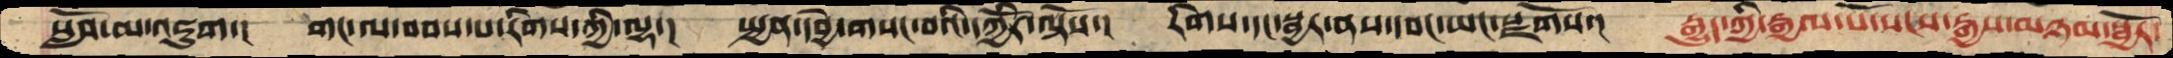སློབ་མ་འཇུག་།  གང་ལ་བབས་པ་རིགས་ཀྱི་ལྷ་།  སྤྱན་དབྱེ་གསང་བའི་དཀྱོིར་ལྟོས་།  རིགས་དང་སྦྱར་ནས་དབང་ཡང་སྫོགས་།  རྒྱུད་ཀྱི་རྒྱལ་པོ་སངས་རྒྱས་མཉམ་སྦྱོར་
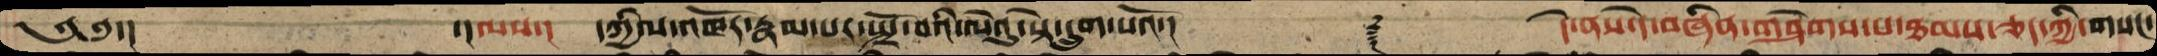༄༅་།         ་།ལས་།  དཀྱིལ་འཁོར་རྣམ་པར་སྤྲོ་བའི་ལེའུ་སྟེ་དྲུག་པའོ་།        ༈    དེ་ནས་དེ་བཞིན་གཤེགས་པ་ཐམས་ཅད་ཀྱི་གསང་
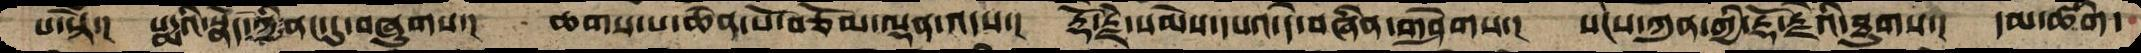པ་སྟེ་།  པདྨའི་སྣོད་ཀྱི་ནང་དུ་བཞུགས་།  ཆགས་པ་ཆེན་པོ་བཅོམ་ལྡན་འདས་།  རྡོ་རྗེ་སེམས་དཔའ་དེ་བཞིན་གཤེགས་།   སངས་ཀུན་གྱི་རྡོ་རྗེའི་ཐུགས་།  དམ་ཚིག་
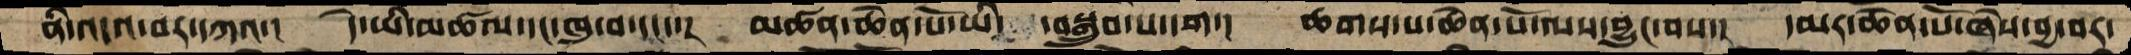ནི་འདའ་བར་དཀའ་།  དེ་ཡི་མཚལ་དང་ཁུ་བ་དང་་།  མཚན་ཆེན་པོ་ཡི་  ་བསྒྲུབ་པ་དག་།  ཆགས་པ་ཆེན་པོ་ལས་བྱུང་བས་།  དམར་ཆེན་པོ་ཞེས་བྱ་བར་
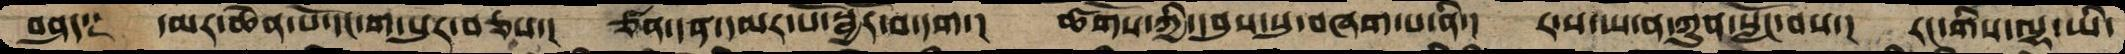བཤད༑  དམར་ཆེན་པོ་དང་ག་པུར་བཅས་།  ཙན་དན་དམར་པོ་སྦྱོར་བ་དག་།  ཚོགས་ཀྱི་དབུས་སུ་བཞག་པ་ནི་།   ར་ས་ཡ་ན་ཀུན་སློང་བས་།  རང་གིས་ལྷ་ཡི་
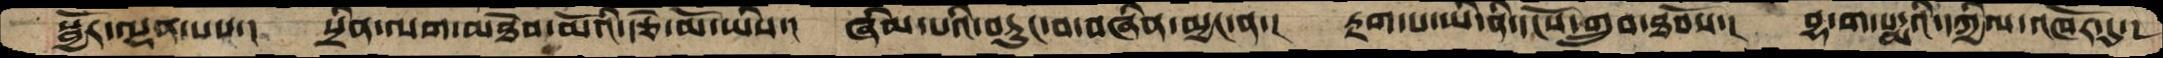སྦྱོར་ལྡན་པས་།   སྲིན་ལག་མཐེབ་མོའི་རྩེ་མོ་ཡིས་།  ཞིམ་པའི་བཏུང་བ་བཞིན་མྱང་ན་།   རྟག་པ་ཡི་ནི་དངོས་གྲུབ་ཐོབས་།   བྷ་ག་པདྨའི་དཀྱིལ་འཁོར་དུ་།
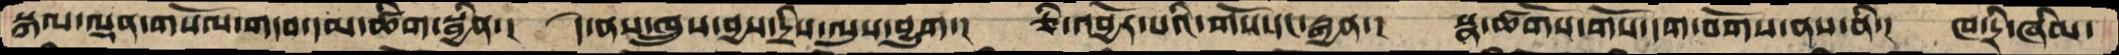སྐལ་ལྡན་གསོལ་གདབ་དམ་ཚིག་སྦྱིན་།  དེ་ནས་ཁྲུས་བྱས་དྲིས་ལུས་བྱུག་།  ཅི་འབྱོར་པའི་གོས་དང་རྒྱན་།  སྣ་ཚོགས་གོས་དག་བགོས་ནས་ནི་།  ཁ་དྲི་ཞིམ་
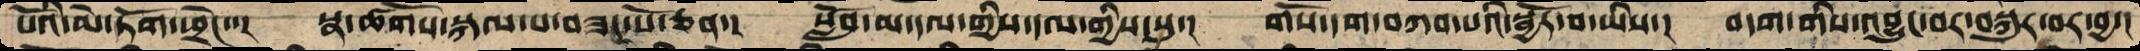པོའི་མེ་ཏོག་ཕྲེང་་།  སྣ་ཚོགས་སྐལ་པ་བཟང་པོ་ཅན་།  སློབ་མ་དལ་གྱིས་དལ་གྱིས་སུ་།  གསོ་དག་བཀབ་པའི་སྦྱོར་བ་ཡིས་།  བདག་གིས་འབྱུང་བར་བསྐུར་བར་བྱ་།
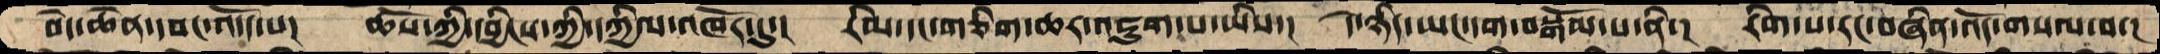བདེ་ཆེན་དབང་འདོད་པ།  ཆོས་ཀྱི་དབྱིངས་ཀྱི་དཀྱིལ་འཁོར་དུ་།  རིམ་དང་གཅིག་ཆར་འཇུག་པ་ཡིས་།  དེ་ཉིད་ཡང་དག་བསྒོམ་པ་ནི་།  རིག་པ་རང་བཞིན་འོད་གསལ་བ་།
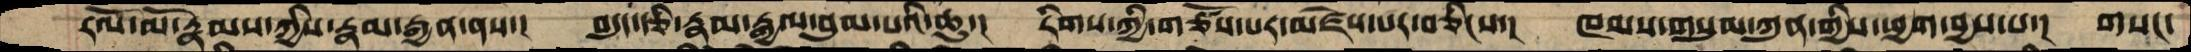རོལ་མོ་རྣམས་ཀྱིས་རྣམ་རྒྱན་ནས་།  བདུད་རྩི་རྣམ་རྒྱལ་བུམ་པའི་ཆུ་།  རིགས་ཀྱི་གཙོས་པར་མཛེས་པར་བཅིངས་།  ཁམས་གསུམ་ཀུན་གྱིས་ཕྱག་བྱས་པ་།  གསང་
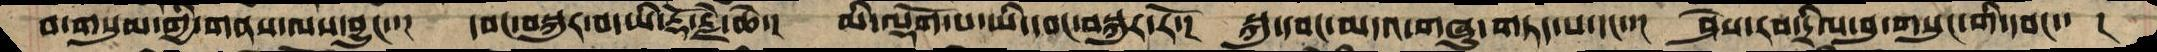བ་གསུམ་གྱི་གནས་ལས་བྱུང་་།  དབང་བསྐུར་བ་ཡི་རྡོ་རྗེ་ཆེ་།  མི་ལྡོག་པ་ཡི་དབང་བསྐུར་རོ་།  སྐུ་དབང་མདའ་གཞུ་གཏད་པ་དང་་།  ཤེས་རབ་དྲིལ་བུ་གསུང་གི་དབང་་  །
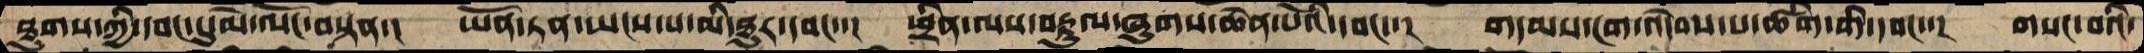ཐུགས་ཀྱི་དབང་དུ་མེ་ལོང་བསྟན་།  ཡོན་ཏན་ཡངས་པ་མི་ཐུར་དབང་་།  ཕྲིན་ལས་བརྟུལ་ཞུགས་ཆེན་པོའི་དབང་་།  གདམས་ངག་འདེབས་པ་ཚིག་གི་དབང་་།  གསང་བའི་
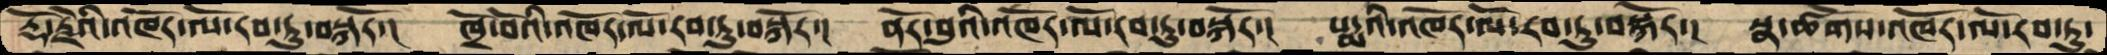རྡོ་རྗེ་འཁོར་ལོ་རབ་ཏུ་བསྐོར་།  ཁྲོ་བོའི་འཁོར་ལོ་རབ་ཏུ་བསྐོར་།  ནོར་བུའི་འཁོར་ལོ་རབ་ཏུ་བསྐོར་།  པདྨའི་འཁོར་ལོ་རབ་ཏུ་བསྐོར་།  སྣ་ཚོགས་འཁོར་ལོ་རབ་ཏུ་
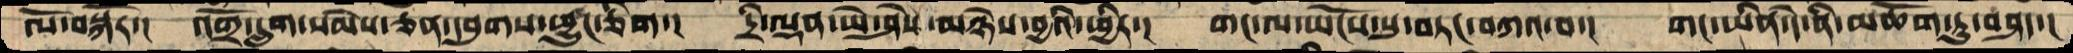ལོ་བསྐོར་།  འགྲོ་དྲུག་སེམས་ཅན་དབུགས་ཕྱུང་ཅིག་།  དྲི་ལྡན་ཡེ་ཤེས་མཉེས་བྱའི་ཕྱིར་།  གང་ལ་ཡོངས་སུ་བཏང་བཀའ་བ་།  གང་ཡིན་དེ་ནི་མཆོག་ཏུ་བཤད་།
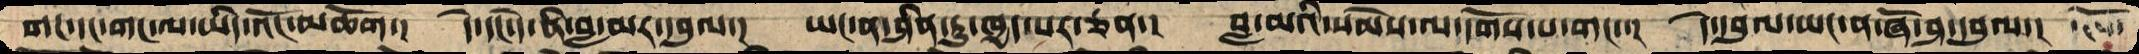གང་དང་གང་ལ་ཡིད་འོང་མཆོག་།  དེ་དང་དེ་ནི་བླ་་མར་དབུལ་།  ཡང་ན་ཤིན་ཏུ་ཁྱད་པར་ཅན་།  བླ་མའི་སེམས་ལ་དགོས་པ་གང་་།  དེ་དབུལ་ཡང་ན་ཞོ་ཤ་དབུལ་།
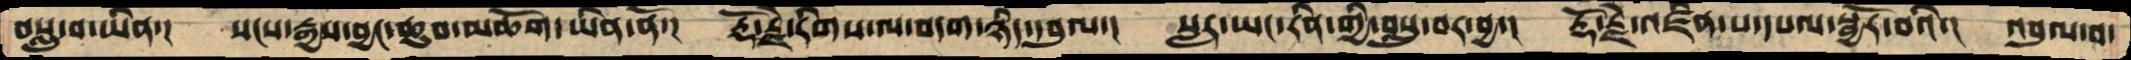བསླུ་བ་ཡིན་།  སངས་རྒྱས་བྱང་ཆུབ་མཆོག་ཡིན་ནོ་།  རྡོ་རྗེ་རིགས་ལ་བདག་ཉིད་དབུལ་།  སླར་ཡང་རིན་གྱི་བསླུ་བར་བྱ་།  རྡོ་རྗེ་འཛིན་པ་དཔལ་སྦྱོར་བའི་།  འབུལ་བ་
